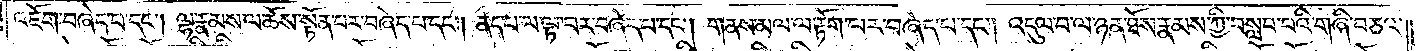འཇོག་བཞེད་པ་དང༌། ལྷ་རྣམས་ལ་ཆོས་སྟོན་པར་བཞེད་པ་དང༌། ནད་པ་ལ་ལྟ་བར་བཞེད་པ་དང༌། གནས་མལ་ལ་རྟོག་པར་བཞེད་པ་དང༌། འདུལ་བ་ལ་ཉན་ཐོས་རྣམས་ཀྱི་བསླབ་པའི་གཞི་བཅའ་
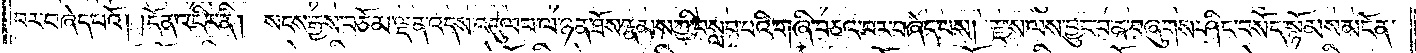པར་བཞེད་པའོ། །དོན་འདིར་ནི། སངས་རྒྱས་བཅོམ་ལྡན་འདས་འདུལ་བ་ལ་ཉན་ཐོས་རྣམས་ཀྱི་བསླབ་པའི་གཞི་བཅའ་བར་བཞེད་པས། རྫས་ལས་བྱུང་བ་ན་བཞུགས་ཤིང་བསོད་སྙོམས་མངོན་
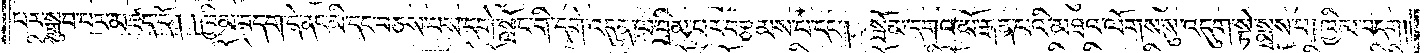པར་སྒྲུབ་པར་མཛད་དོ། །ཁྱིམ་བདག་དེ་ནང་མི་དང་བཅས་པས་དགེ་སློང་གི་དགེ་འདུན་ལ་བྲིམ་པར་བརྩམས་པ་དང༌། སྦོམ་དགའ་མོ་རྒན་པའི་མཐའ་ལོགས་སུ་འདུག་སྟེ་སྨྲས་པ། ཁྱིམ་བདག།
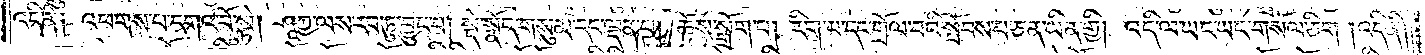འདི་ནི། འཕགས་པ་དགའ་བོ་སྟེ། ཤཱཀྱ་ལས་རབ་ཏུ་བྱུང་བ། སྡེ་སྣོད་གསུམ་དང་ལྡན་པ། ཆོས་སྒྲོག་པ། རིག་པ་དང་གྲོལ་བའི་སྤོབས་པ་ཅན་ཡིན་གྱི། འདི་ལ་ཡང་ཡང་གསོལ་ཅིག །འདི་ནི།
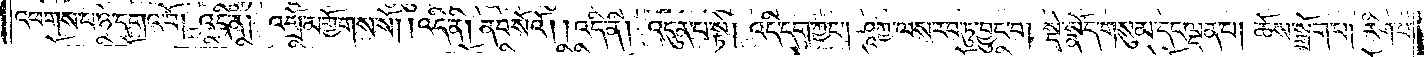འཕགས་པ་ཉེ་དགའ་བོ། འདི་ནི། འགྲོ་མགྱོགས་སོ། །འདི་ནི། ནབ་སོའོ། །འདི་ནི། འདུན་པ་སྟེ། འདི་དག་ཀྱང༌། ཤཱཀྱ་ལས་རབ་ཏུ་བྱུང་བ། སྡེ་སྣོད་གསུམ་དང་ལྡན་པ། ཆོས་སྒྲོག་པ། རིག་པ་
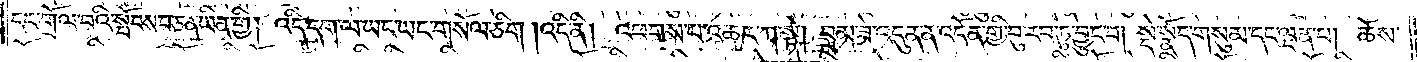དང་གྲོལ་བའི་སྤོབས་པ་ཅན་ཡིན་གྱི། འདི་དག་ལ་ཡང་ཡང་གསོལ་ཅིག །འདི་ནི། འཕགས་པ་འཆར་ཀ་སྟེ། བྲམ་ཟེའི་འདུན་ན་འདོན་གྱི་བུ་རབ་ཏུ་བྱུང་བ། སྡེ་སྣོད་གསུམ་དང་ལྡན་པ། ཆོས་
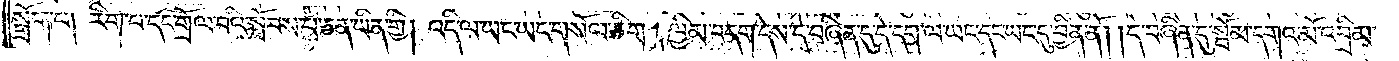སྒྲོག་པ། རིག་པ་དང་གྲོལ་བའི་སྤོབས་པ་ཅན་ཡིན་གྱི། འདི་ལ་ཡང་ཡང་གསོལ་ཅིག །ཁྱིམ་བདག་དེས་དེ་བཞིན་དུ་དེ་དག་ལ་ཡང་དང་ཡང་དུ་བྱིན་ནོ། །དེ་བཞིན་དུ་སྦོམ་དགའ་མོ་འབྲིམ་
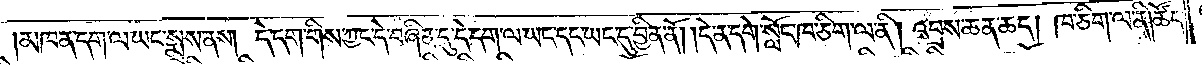མཁན་དག་ལ་ཡང་སྨྲས་ནས། དེ་དག་གིས་ཀྱང་དེ་བཞིན་དུ་དེ་དག་ལ་ཡང་དང་ཡང་དུ་བྱིན་ནོ། །དེ་ན་དགེ་སློང་ཁ་ཅིག་ལ་ནི། འབྲས་ཆན་ཆད། ཁ་ཅིག་ལ་ནི། ཚོད་
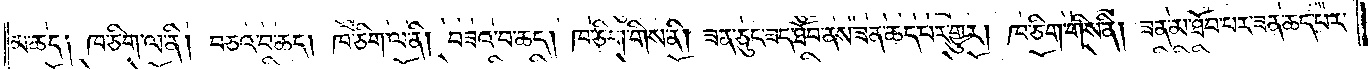མ་ཆད། ཁ་ཅིག་ལ་ནི། བཅའ་བ་ཆད། ཁ་ཅིག་ལ་ནི། བཟའ་བ་ཆད། ཁ་ཅིག་གིས་ནི། ཟན་ཅུང་ཟད་ཐོབ་ནས་ཟན་ཆད་པར་གྱུར། ཁ་ཅིག་གིས་ནི། ཟན་མ་ཐོབ་པར་ཟན་ཆད་པར་
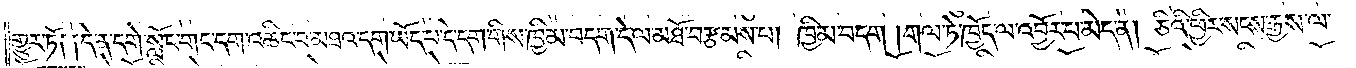གྱུར་ཏོ། །དེ་ན་དགེ་སློང་གང་དག་འཆིང་བ་མཐའ་དག་ཡོད་པ་དེ་དག་གིས་ཁྱིམ་བདག་དེ་ལ་མཐོ་བརྩམས་པ། ཁྱིམ་བདག །གལ་ཏེ་ཁྱོད་ལ་འབྱོར་པ་མེད་ན། ཅིའི་ཕྱིར་སངས་རྒྱས་ལ་
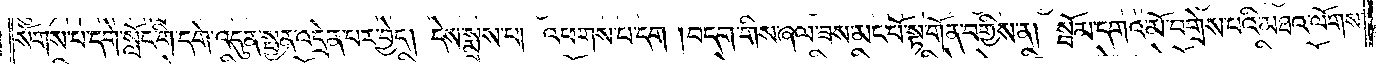སོགས་པ་དགེ་སློང་གི་དགེ་འདུན་སྤྱན་འདྲེན་པར་བྱེད། དེས་སྨྲས་པ། འཕགས་པ་དག །བདག་གིས་ཞལ་ཟས་མང་པོ་སྟ་གོན་བགྱིས་ན། སྦོམ་དགའ་མོ་བགྲེས་པའི་མཐའ་ལོགས་
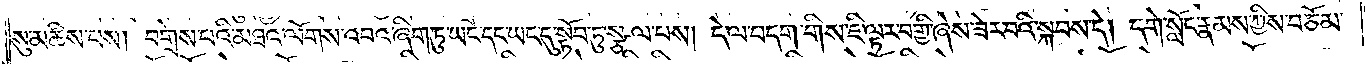སུ་མཆིས་པས། བགྲེས་པའི་མཐའ་ལོགས་འབའ་ཞིག་ཏུ་ཡང་དང་ཡང་དུ་སྟོབ་ཏུ་སྩལ་པས། དེ་ལ་བདག་གིས་ཇི་ལྟར་བགྱི་ཞེས་ཟེར་བའི་སྐབས་དེ། དགེ་སློང་རྣམས་ཀྱིས་བཅོམ་
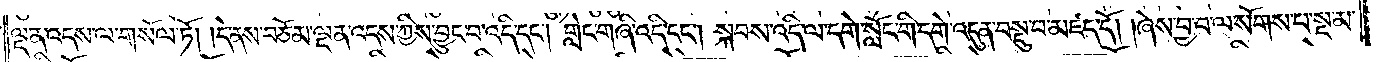ལྡན་འདས་ལ་གསོལ་ཏོ། །དེ་ནས་བཅོམ་ལྡན་འདས་ཀྱིས་བྱུང་བ་འདི་དང༌། གླེང་གཞི་འདི་དང༌། སྐབས་འདི་ལ་དགེ་སློང་གི་དགེ་འདུན་བསྡུ་བ་མཛད་དོ། །ཞེས་བྱ་བ་ལ་སོགས་པ་སྔ་མ་
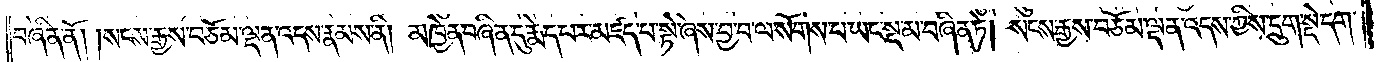བཞིན་ནོ། །སངས་རྒྱས་བཅོམ་ལྡན་འདས་རྣམས་ནི། མཁྱེན་བཞིན་དུ་རྨེད་པར་མཛད་པ་སྟེ་ཞེས་བྱ་བ་ལ་སོགས་པ་ཡང་སྔ་མ་བཞིན་ཏེ། སངས་རྒྱས་བཅོམ་ལྡན་འདས་ཀྱིས་དྲུག་སྡེ་དག་
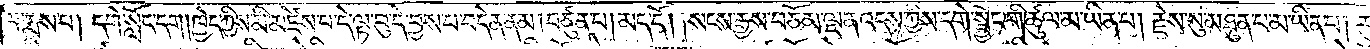ལ་རྨས་པ། དགེ་སློང་དག། ཁྱེད་ཀྱིས་མི་མཛེས་པ་དེ་ལྟ་བུ་དེ་བྱས་པ་བདེན་ནམ། བཙུན་པ། མད་དོ། །སངས་རྒྱས་བཅོམ་ལྡན་འདས་ཀྱིས་དགེ་སྦྱོང་གི་ཚུལ་མ་ཡིན་པ། རྗེས་སུ་མཐུན་པ་མ་ཡིན་པ། རུ
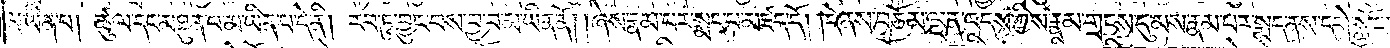མ་ཡིན་པ། ཚུལ་དང་མཐུན་པ་མ་ཡིན་པ་དེ་ནི། རབ་ཏུ་བྱུང་བས་བྱ་བ་མ་ཡིན་ནོ། །ཞེས་རྣམ་པར་སྨད་པ་མཛད་དོ། །དེ་ནས་བཅོམ་ལྡན་འདས་ཀྱིས་རྣམ་གྲངས་དུ་མས་རྣམ་པར་སྨད་ནས་དགེ་སློང་
